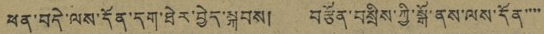ཕན་བདེ་ལས་དོན་དག་ཐེར་བྱེད་སྐབས། བརྩོན་བསྲིས་ཀྱི་སྒོ་ནས་ལས་དོན་་་་
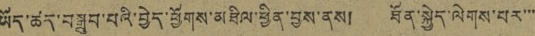ཡོད་ཚད་བསྒྲུབ་པའི་བྱེད་ཕྱོགས་མཐིལ་ཕྱིན་བྱས་ནས། ཐོན་སྐྱེད་ལེགས་པར་་་
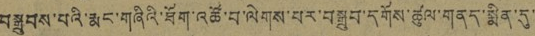བསྒྲུབས་པའི་རྨང་གཞིའི་ཐོག་འཚོ་བ་ལེགས་པར་བསྒྲུབ་དགོས་ཚུལ་གནད་སྨིན་དུ་
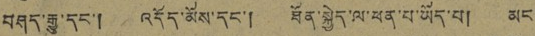བཤད་རྒྱུ་དང་། འདོད་མོས་དང་། ཐོན་སྐྱེད་ལ་ཕན་པ་ཡོད་པ། མང་
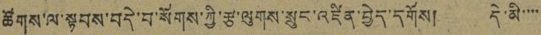ཚོགས་ལ་སྟབས་བདེ་བ་སོགས་ཀྱི་རྩ་ལུགས་སྲུང་འཛིན་བྱད་དགོས། དེ་མི་་་་
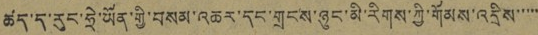ཚད་ད་རུང་ཧྲེ་ཡོན་གྱི་བསམ་འཆར་དང་གྲངས་ཉུང་མི་རིགས་ཀྱི་གོམས་འདྲིས་་་་་
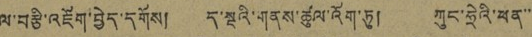ལ་བརྩི་འཇོག་བྱེད་དགོས། ད་སྔའི་གནས་ཚུལ་འོག་ཏུ། ཀུང་ཧྲེའ་ཕན་་་
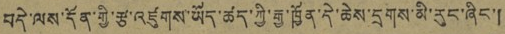བདེ་ལས་དོན་གྱི་རྩ་འཛུགས་ཡོད་ཚད་ཀྱི་རྒྱ་ཁྱོན་དེ་ཆེས་དྲགས་མི་རུང་ཞིང་།
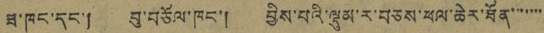ཟ་ཁང་དང་། བུ་བཅོལ་ཁང་། བྱིས་པའི་སྡུམ་ར་བཅས་ཕལ་ཆེར་ཐོན་་་་་་་
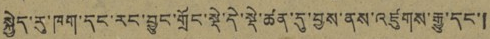སྐྱེད་རུ་ཁག་དང་རང་བྱུང་གྲོང་སྡེ་དེ་སྡེ་ཚན་དུ་བྱས་ནས་འཛུགས་རྒྱུ་དང་།
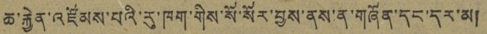ཆ་རྐྱེན་འཛོམས་པའི་རུ་ཁག་གིས་སོ་སོར་བྱས་ནས་ན་གཞོན་དང་དར་མ།
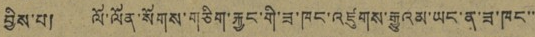བྱིས་པ། ལོ་ལོན་སོགས་གཅིག་རྐྱང་གི་ཟ་ཁང་འཛུགས་རྒྱུའམ་ཡང་ན་ཟ་ཁང་་་
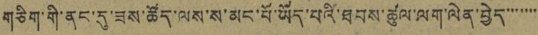གཅིག་གི་ནང་དུ་ཟས་ཚོད་ལས་ས་མང་པོ་ཡོད་པའི་ཐབས་ཚུལ་ལག་ལེན་བྱེད་་་་་་་
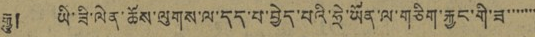རྒྱུ། ཡི་ཟི་ལེན་ཆོས་ལུགས་ལ་དད་པ་བྱེད་པའི་ཧྲེ་ཡོན་ལ་གཅིག་རྐྱང་གི་ཟ་་་་་་་
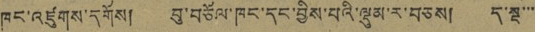ཁང་འཛུགས་དགོས། བུ་བཅོལ་ཁང་དང་བྱིས་པའི་ལྡུམ་ར་བཅས། ད་སྔ་་་
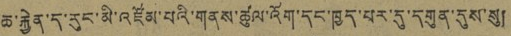ཆ་རྐྱེན་ད་རུང་མི་འཛོམ་པའི་གནས་ཚུལ་འོག་དང་ཁྱད་པར་དུ་དགུན་དུས་སུ།
